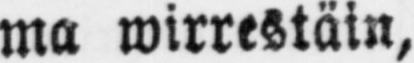ma wirrestäin,
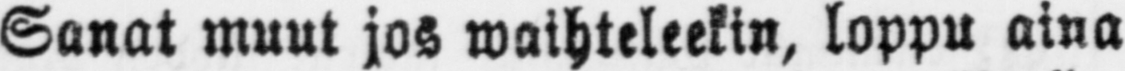Sanat muut jos waihteleekin, loppu aina
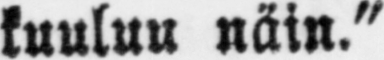kuuluu näin."
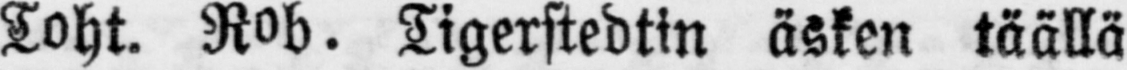Toht. Rob. Tigerstedtin äsken täällä
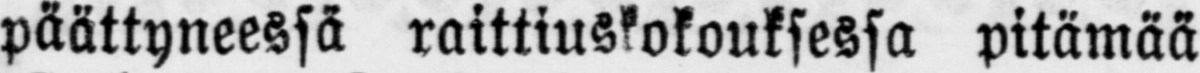päättyneessä raittiuskokouksessa pitämää
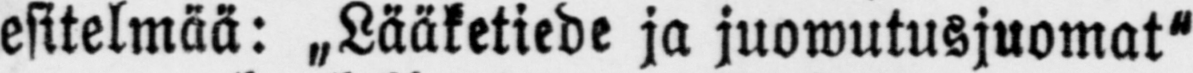esitelmää: „Lääketiede ja juowutusjuomat"
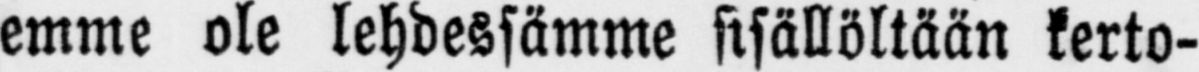emme ole lehdessämme sisällöltään kerto-
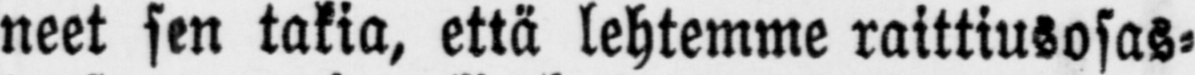neet sen takia, että lehtemme raittiusosas-
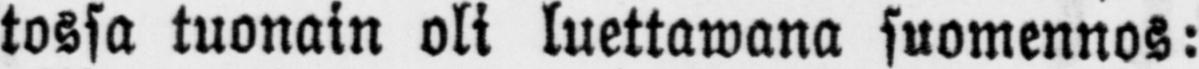tossa tuonain oli luettawana suomennos:
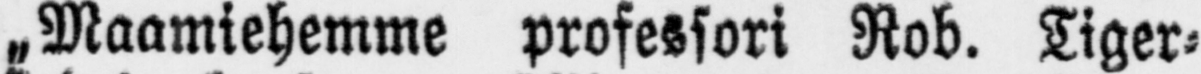˶ Maamiehemme professori Rob. Tiger-
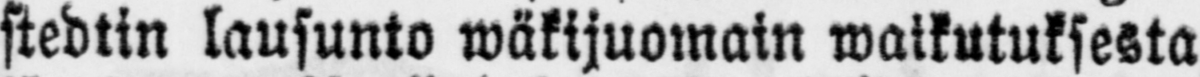stedtin lausunto wäkijuomain waikutuksesta
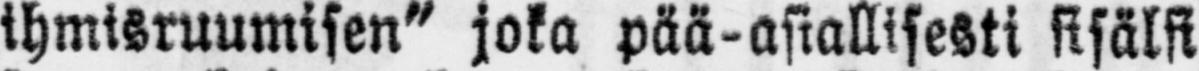ihmisruumisen" joka pää-asiallisesti sisälsi
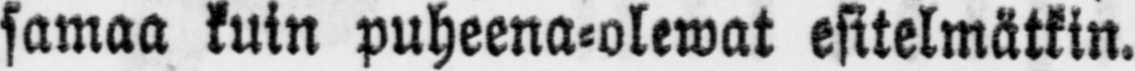samaa kuin puheena-olewat esitelmätkin.
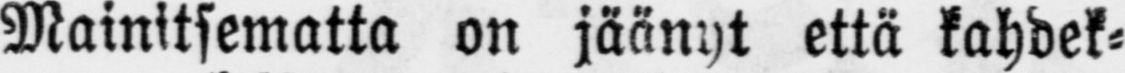Mainitsematta on jäänyt että kahdek-
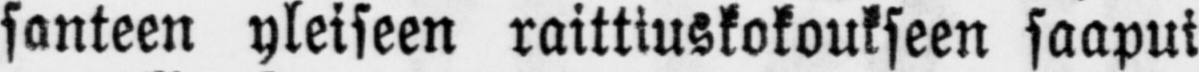santeen yleiseen raittiuskokoukseen saapui
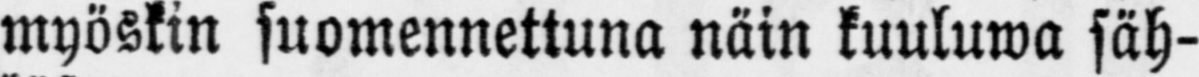myöskin suomennettuna näin kuuluwa säh-
